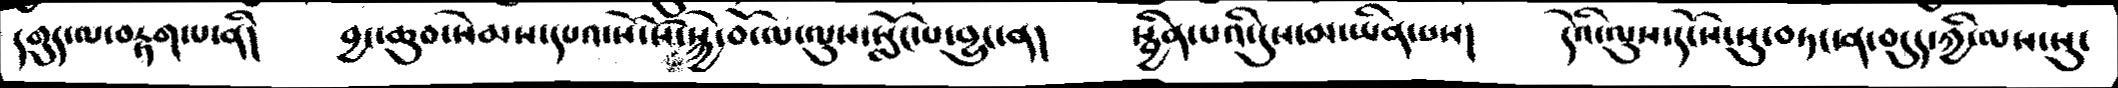དགུད་ལ་བརྟག་པ་ནི།  བྱང་ཆུབ་སེམས་དཔའ་སོ་སོ་སྐྱེ་བོ་མ་ལུས་སློང་པ་བྱུང་ན།    སྦྱིན་པའི་དུས་མ་ཡིན་པས།   དེའི་ལུས་དངོས་སུ་བཏང་ན་བདུད་ཀྱི་ལས་སུ་
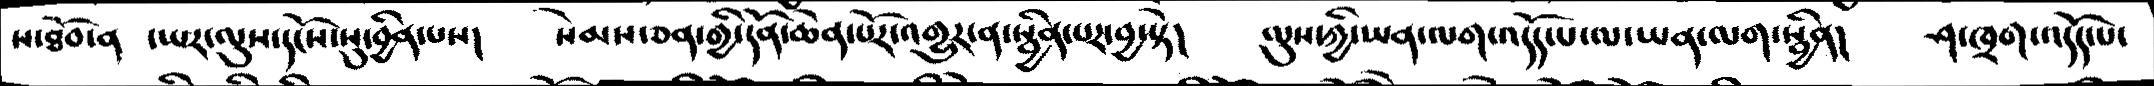ས་ཐོབ་ན  ་ཡར་ལུས་དངོས་སུ་བྱིན་པས།   སེམས་ཅན་གྱི་དོན་ཆེན་པོར་འགྱུར་ན་སྦྱིན་པར་བྱ་སྟེ།     ལུས་ཀྱི་ཡན་ལག་འདོད་པ་ལ་ཡན་ལག་སྦྱིན།    ཤ་ཁྲག་འདོད་པ་
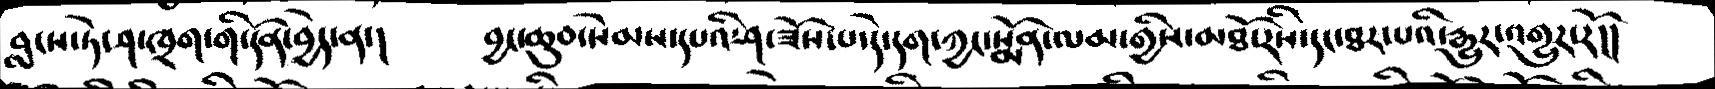བླངས་ཏེ་ཤ་ཁྲག་གི་དོན་བྱེད་ན་།    བྱང་ཆུབ་སེམས་དཔའི་ཤ་ཟོས་པ་དེ་དག་ཀྱང་སྨོན་ལམ་གྱིས་མཐོ་རིས་དང་ཐར་པའི་རྒྱུར་འགྱུར་རོ།།
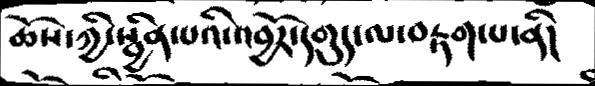ཆོས་ཀྱི་སྦྱིན་པའི་འབྱོར་དགུད་ལ་བརྟག་པ་ནི།
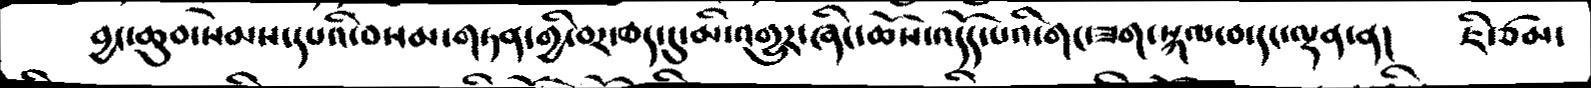བྱང་ཆུབ་སེམས་དཔའི་བསམ་གཏན་གྱི་བར་ཆད་དུ་མི་འགྱུར་ཞིང་ཆོས་འདོད་པའི་གང་ཟག་སྐལ་བ་དང་ལྡན་ན།    ཇི་ཙམ་
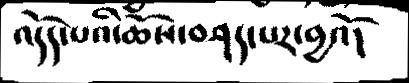འདོད་པའི་ཆོས་བཤད་པར་བྱའོ།
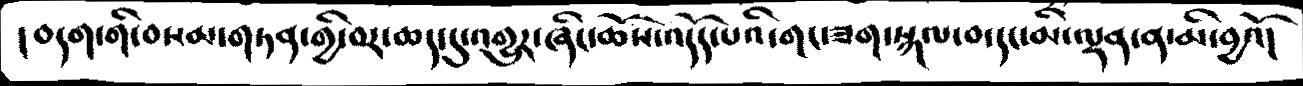།བདག་གི་བསམ་གཏན་གྱི་བར་ཆད་དུ་འགྱུར་ཞིང་ཆོས་འདོད་པའི་གང་ཟག་སྐལ་བ་དང་མི་ལྡན་ན་མི་བྱའོ།
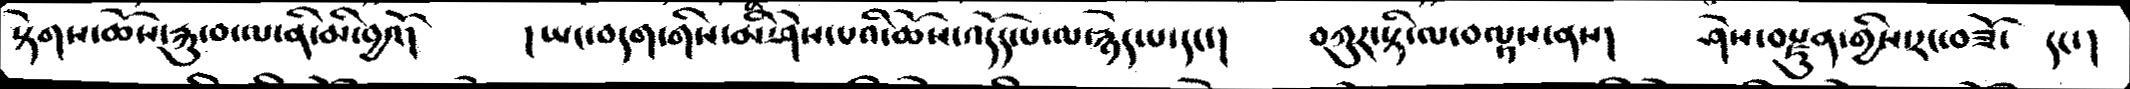སྟེགས་ཆོས་རྐུ་བ་ལ་ནི་མི་བྱའོ།    །ཡང་བདག་གིས་མི་ཤེས་པའི་ཆོས་འདོད་པ་ལ་རྙེད་པ་དང་།    བཀུར་སྟི་ལ་བལྟས་ནས།    ཤེས་བརྫུན་གྱིས་རང་བཟོ་  དང་།
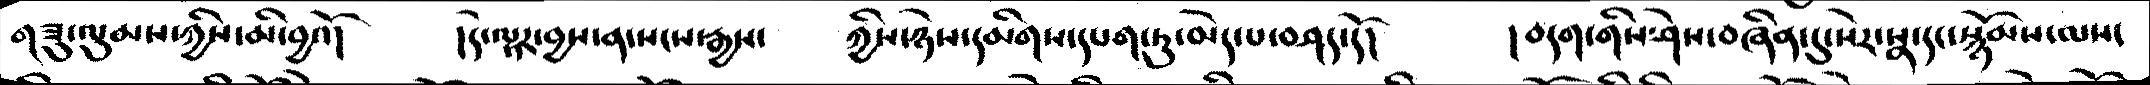གཟུ་ལུམས་ཀྱིས་མི་བྱའོ།    །དེ་ལྟར་བྱས་ན་སངས་རྒྱས་   ཀྱིས་ཉེས་དམིགས་དཔག་ཏུ་མེད་པ་བཤད་དོ།    །བདག་གིས་ཤེས་བཞིན་དུ་སེར་སྣ་དང་སྙོམས་ལས་
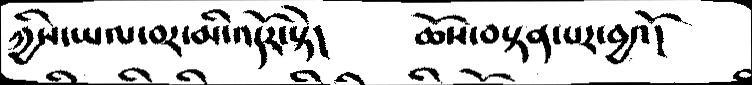ཀྱིས་ཡལ་བར་མི་འདོར་སྟེ།     ཆོས་བསྟན་པར་བྱའོ།
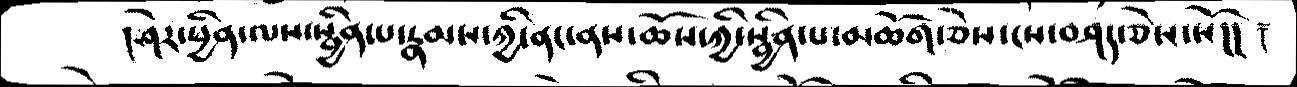།ཤེར་ཕྱིན་ལས་སྦྱིན་པ་རྣམས་ཀྱི་ནང་ནས་ཆོས་ཀྱི་སྦྱིན་པ་མཆོག་ཅེས་ངས་བཤད་ཅེས་སོ།། ༈
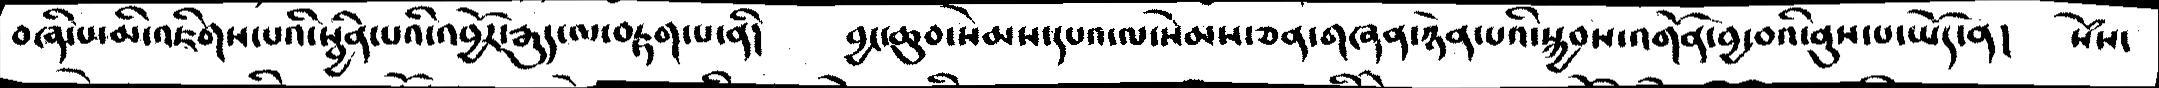བཞི་པ་མི་འཇིགས་པའི་སྦྱིན་པའི་འབྱོར་རྒུད་ལ་བརྟག་པ་ནི།    བྱང་ཆུབ་སེམས་དཔའ་ལ་སེམས་ཅན་གཞན་ཉེན་པའི་སྐྱབས་འགོན་བྱ་བའི་ནུས་པ་ཡོད་ན།   སེཾས་
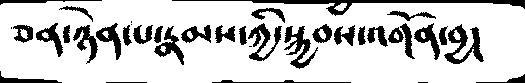ཅན་ཉེན་པ་རྣམས་ཀྱི་སྐྱབས་འགོན་བྱ།
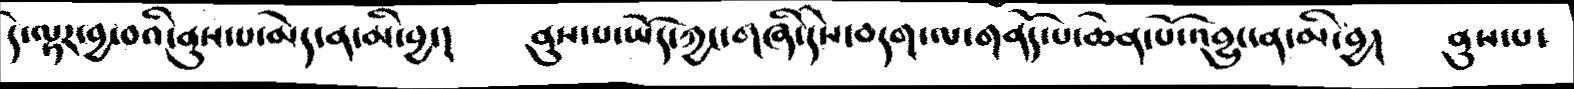དེ་ལྟར་བྱ་བའི་ནུས་པ་མེད་ན་མི་བྱ་།    ནུས་པ་ཡོད་ཀྱང་གཞི་དེས་བདག་ལ་གནོད་པ་ཆེན་པོ་འབྱུང་ན་མི་བྱ།    ནུས་པ་
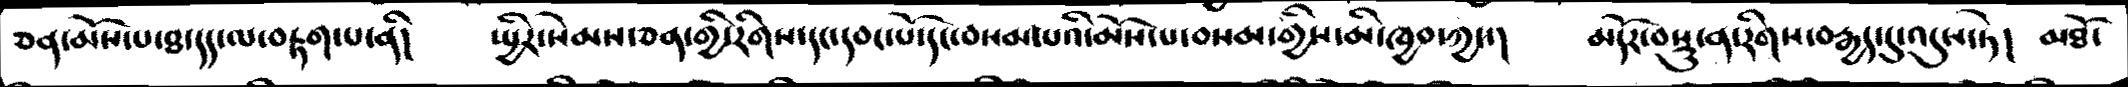ཅན་མོས་པ་ཐ་དད་ལ་བརྟག་པ་ནི།   སྤྱིར་སེམས་ཅན་གྱི་རིགས་དང་དབང་པོ་དང་བསམ་པའི་མོས་པ་བསམ་གྱིས་མི་ཁྱབ་ཀྱང་།  མདོར་བསྡུ་ན་རིགས་བརྒྱད་དུ་འདུས་ཏེ།   མཐོ་
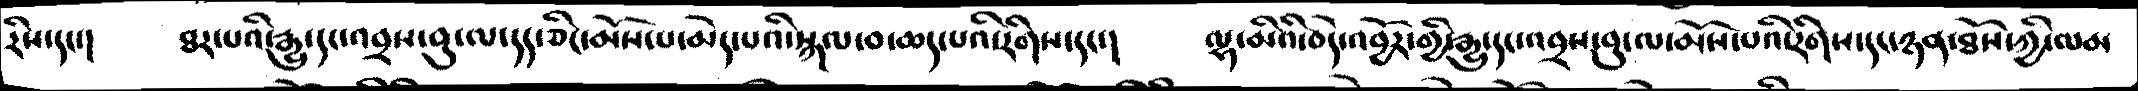རིས་དང་།   ཐར་པའི་རྒྱུ་དང་འབྲས་བུ་ལ་དད་ཅིང་མོས་པ་མེད་པའི་སྐལ་བ་ཆད་པའི་རིགས་དང་།   ལྷ་མིའི་བདེ་འབྱོར་གྱི་རྒྱུ་དང་འབྲས་བུ་ལ་མོས་པའི་རིགས་དང་ཉན་ཐོས་ཀྱི་ལམ
